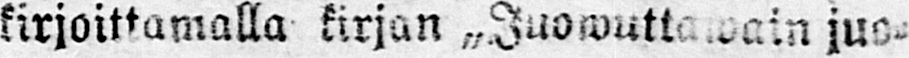kirjoittamalla kirjan „Juowuttawain juo-
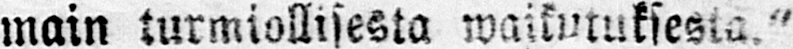main turmiollisesta waikutuksesta."
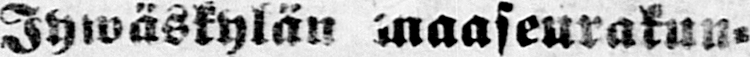- Jywäskyl ä n maaseurakun-
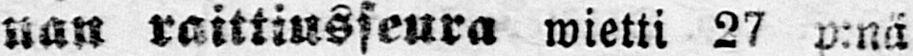nan raittiusseura wietti 27 p:nä
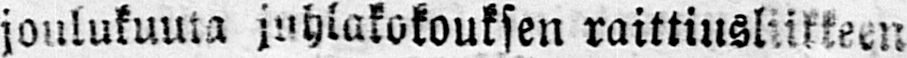joulukuuta juhlakokouksen raittiusliikkeen
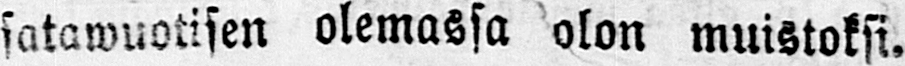satawuotisen olemassa olon muistoksi.
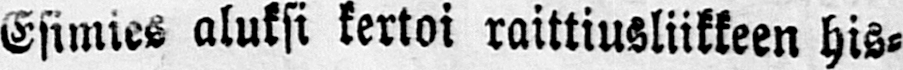Esimies aluksi kertoi raittiusliikkeen his-
